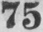75
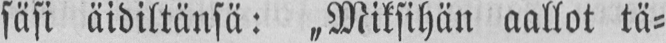säsi äidiltänsä: „Miksihän aallot tä-
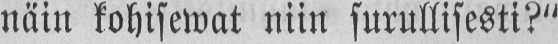näin kohisewat niin surullisesti?"
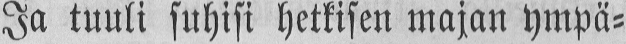Ja tuuli suhisi hetkisen majan ympä-
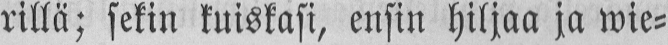rillä; sekin kuiskasi, ensin hiljaa ja wie-
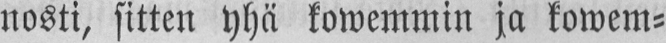nosti, sitten yhä kowemmin ja kowem-
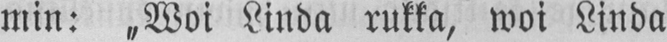min: „Woi Linda rukka, woi Linda
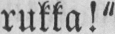rukka!"
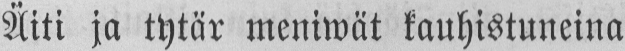Äiti ja tytär meniwät kauhistuneina
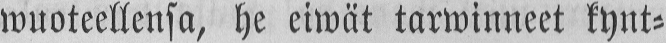wuoteellensa, he eiwät tarwinneet kynt-
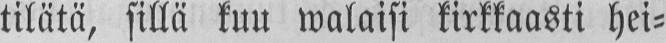tilätä, sillä kuu walaisi kirkkaasti hei-
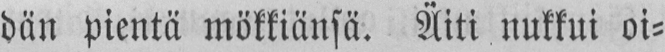dän pientä mökkiänsä. Äiti nukkui oi-
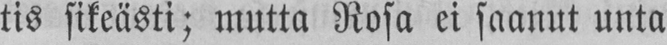tis sikeästi; mutta Rosa ei saanut unta
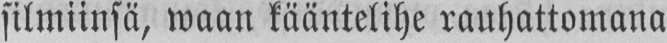silmiinsä, waan kääntelihe rauhattomana
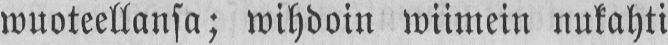wuoteellansa; wihdoin wiimein nukahti
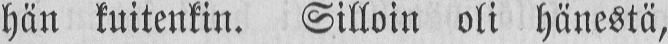hän kuitenkin. Silloin oli hänestä,
